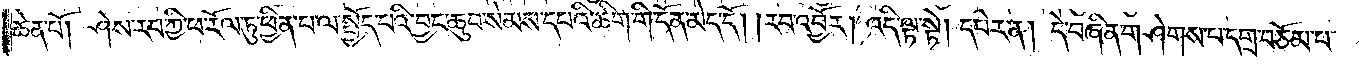ཆེན་པོ། ཤེས་རབ་ཀྱི་ཕ་རོལ་ཏུ་ཕྱིན་པ་ལ་སྤྱོད་པའི་བྱང་ཆུབ་སེམས་དཔའི་ཚིག་གི་དོན་མེད་དོ། །རབ་འབྱོར། འདི་ལྟ་སྟེ། དཔེར་ན། དེ་བཞིན་གཤེགས་པ་དགྲ་བཅོམ་པ་
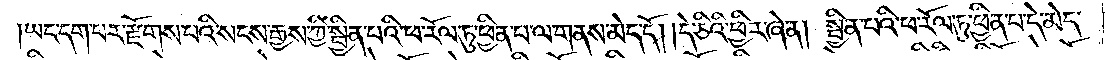ཡང་དག་པར་རྫོགས་པའི་སངས་རྒྱས་ཀྱི་སྦྱིན་པའི་ཕ་རོལ་ཏུ་ཕྱིན་པ་ལ་གནས་མེད་དོ། །དེ་ཅིའི་ཕྱིར་ཞེ་ན། སྦྱིན་པའི་ཕ་རོལ་ཏུ་ཕྱིན་པ་དེ་མེད་
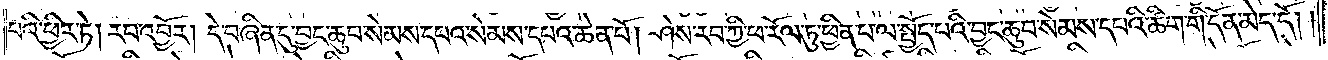པའི་ཕྱིར་ཏེ། རབ་འབྱོར། དེ་བཞིན་དུ་བྱང་ཆུབ་སེམས་དཔའ་སེམས་དཔའ་ཆེན་པོ། ཤེས་རབ་ཀྱི་ཕ་རོལ་ཏུ་ཕྱིན་པ་ལ་སྤྱོད་པའི་བྱང་ཆུབ་སེམས་དཔའི་ཚིག་གི་དོན་མེད་དོ། །
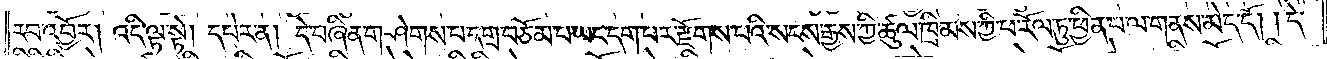རབ་འབྱོར། འདི་ལྟ་སྟེ། དཔེར་ན། དེ་བཞིན་གཤེགས་པ་དགྲ་བཅོམ་པ་ཡང་དག་པར་རྫོགས་པའི་སངས་རྒྱས་ཀྱི་ཚུལ་ཁྲིམས་ཀྱི་ཕ་རོལ་ཏུ་ཕྱིན་པ་ལ་གནས་མེད་དོ། །དེ་
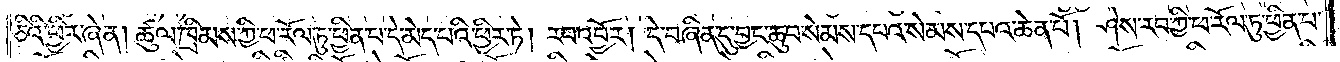ཅིའི་ཕྱིར་ཞེ་ན། ཚུལ་ཁྲིམས་ཀྱི་ཕ་རོལ་ཏུ་ཕྱིན་པ་དེ་མེད་པའི་ཕྱིར་ཏེ། རབ་འབྱོར། དེ་བཞིན་དུ་བྱང་ཆུབ་སེམས་དཔའ་སེམས་དཔའ་ཆེན་པོ། ཤེས་རབ་ཀྱི་ཕ་རོལ་ཏུ་ཕྱིན་པ་
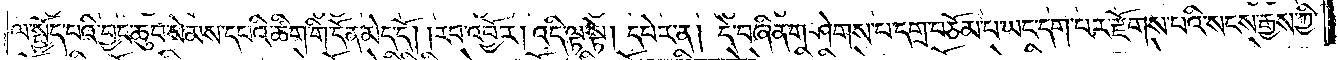ལ་སྤྱོད་པའི་བྱང་ཆུབ་སེམས་དཔའི་ཚིག་གི་དོན་མེད་དོ། །རབ་འབྱོར། འདི་ལྟ་སྟེ། དཔེར་ན། དེ་བཞིན་གཤེགས་པ་དགྲ་བཅོམ་པ་ཡང་དག་པར་རྫོགས་པའི་སངས་རྒྱས་ཀྱི་
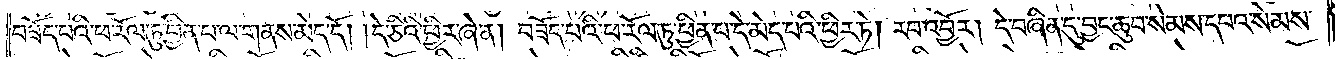བཟོད་པའི་ཕ་རོལ་ཏུ་ཕྱིན་པ་ལ་གནས་མེད་དོ། །དེ་ཅིའི་ཕྱིར་ཞེ་ན། བཟོད་པའི་ཕ་རོལ་ཏུ་ཕྱིན་པ་དེ་མེད་པའི་ཕྱིར་ཏེ། རབ་འབྱོར། དེ་བཞིན་དུ་བྱང་ཆུབ་སེམས་དཔའ་སེམས་
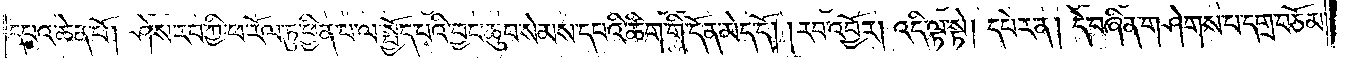དཔའ་ཆེན་པོ། ཤེས་རབ་ཀྱི་ཕ་རོལ་ཏུ་ཕྱིན་པ་ལ་སྤྱོད་པའི་བྱང་ཆུབ་སེམས་དཔའི་ཚིག་གི་དོན་མེད་དོ། །རབ་འབྱོར། འདི་ལྟ་སྟེ། དཔེར་ན། དེ་བཞིན་གཤེགས་པ་དགྲ་བཅོམ་
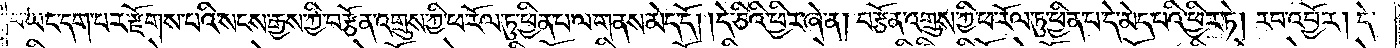པ་ཡང་དག་པར་རྫོགས་པའི་སངས་རྒྱས་ཀྱི་བརྩོན་འགྲུས་ཀྱི་ཕ་རོལ་ཏུ་ཕྱིན་པ་ལ་གནས་མེད་དོ། །དེ་ཅིའི་ཕྱིར་ཞེ་ན། བརྩོན་འགྲུས་ཀྱི་ཕ་རོལ་ཏུ་ཕྱིན་པ་དེ་མེད་པའི་ཕྱིར་ཏེ། རབ་འབྱོར། དེ་
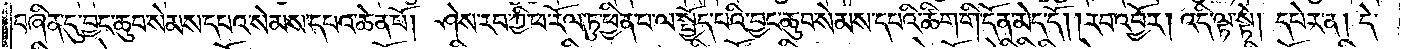བཞིན་དུ་བྱང་ཆུབ་སེམས་དཔའ་སེམས་དཔའ་ཆེན་པོ། ཤེས་རབ་ཀྱི་ཕ་རོལ་ཏུ་ཕྱིན་པ་ལ་སྤྱོད་པའི་བྱང་ཆུབ་སེམས་དཔའི་ཚིག་གི་དོན་མེད་དོ། །རབ་འབྱོར། འདི་ལྟ་སྟེ། དཔེར་ན། དེ་
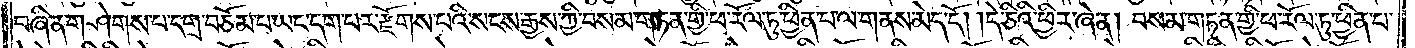བཞིན་གཤེགས་པ་དགྲ་བཅོམ་པ་ཡང་དག་པར་རྫོགས་པའི་སངས་རྒྱས་ཀྱི་བསམ་གཏན་གྱི་ཕ་རོལ་ཏུ་ཕྱིན་པ་ལ་གནས་མེད་དོ། །དེ་ཅིའི་ཕྱིར་ཞེ་ན། བསམ་གཏན་གྱི་ཕ་རོལ་ཏུ་ཕྱིན་པ་
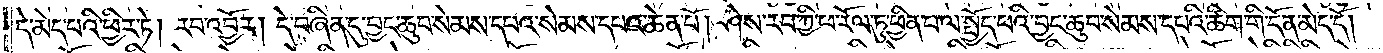དེ་མེད་པའི་ཕྱིར་ཏེ། རབ་འབྱོར། དེ་བཞིན་དུ་བྱང་ཆུབ་སེམས་དཔའ་སེམས་དཔའ་ཆེན་པོ། ཤེས་རབ་ཀྱི་ཕ་རོལ་ཏུ་ཕྱིན་པ་ལ་སྤྱོད་པའི་བྱང་ཆུབ་སེམས་དཔའི་ཚིག་གི་དོན་མེད་དོ། །
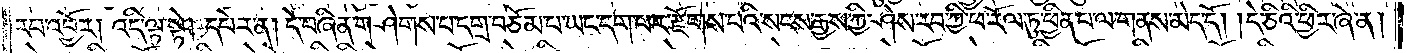རབ་འབྱོར། འདི་ལྟ་སྟེ། དཔེར་ན། དེ་བཞིན་གཤེགས་པ་དགྲ་བཅོམ་པ་ཡང་དག་པར་རྫོགས་པའི་སངས་རྒྱས་ཀྱི་ཤེས་རབ་ཀྱི་ཕ་རོལ་ཏུ་ཕྱིན་པ་ལ་གནས་མེད་དོ། །དེ་ཅིའི་ཕྱིར་ཞེ་ན།
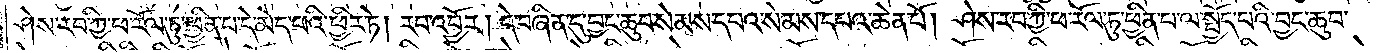ཤེས་རབ་ཀྱི་ཕ་རོལ་ཏུ་ཕྱིན་པ་དེ་མེད་པའི་ཕྱིར་ཏེ། རབ་འབྱོར། དེ་བཞིན་དུ་བྱང་ཆུབ་སེམས་དཔའ་སེམས་དཔའ་ཆེན་པོ། ཤེས་རབ་ཀྱི་ཕ་རོལ་ཏུ་ཕྱིན་པ་ལ་སྤྱོད་པའི་བྱང་ཆུབ་
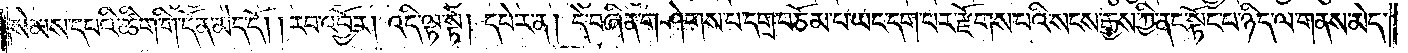སེམས་དཔའི་ཚིག་གི་དོན་མེད་དོ། །རབ་འབྱོར། འདི་ལྟ་སྟེ། དཔེར་ན། དེ་བཞིན་གཤེགས་པ་དགྲ་བཅོམ་པ་ཡང་དག་པར་རྫོགས་པའི་སངས་རྒྱས་ཀྱི་ནང་སྟོང་པ་ཉིད་ལ་གནས་མེད་
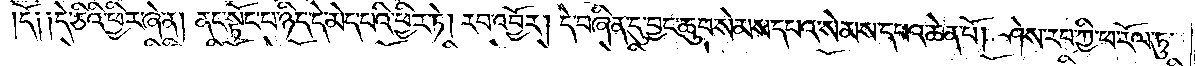དོ། །དེ་ཅིའི་ཕྱིར་ཞེ་ན། ནང་སྟོང་པ་ཉིད་དེ་མེད་པའི་ཕྱིར་ཏེ། རབ་འབྱོར། དེ་བཞིན་དུ་བྱང་ཆུབ་སེམས་དཔའ་སེམས་དཔའ་ཆེན་པོ། ཤེས་རབ་ཀྱི་ཕ་རོལ་ཏུ་
